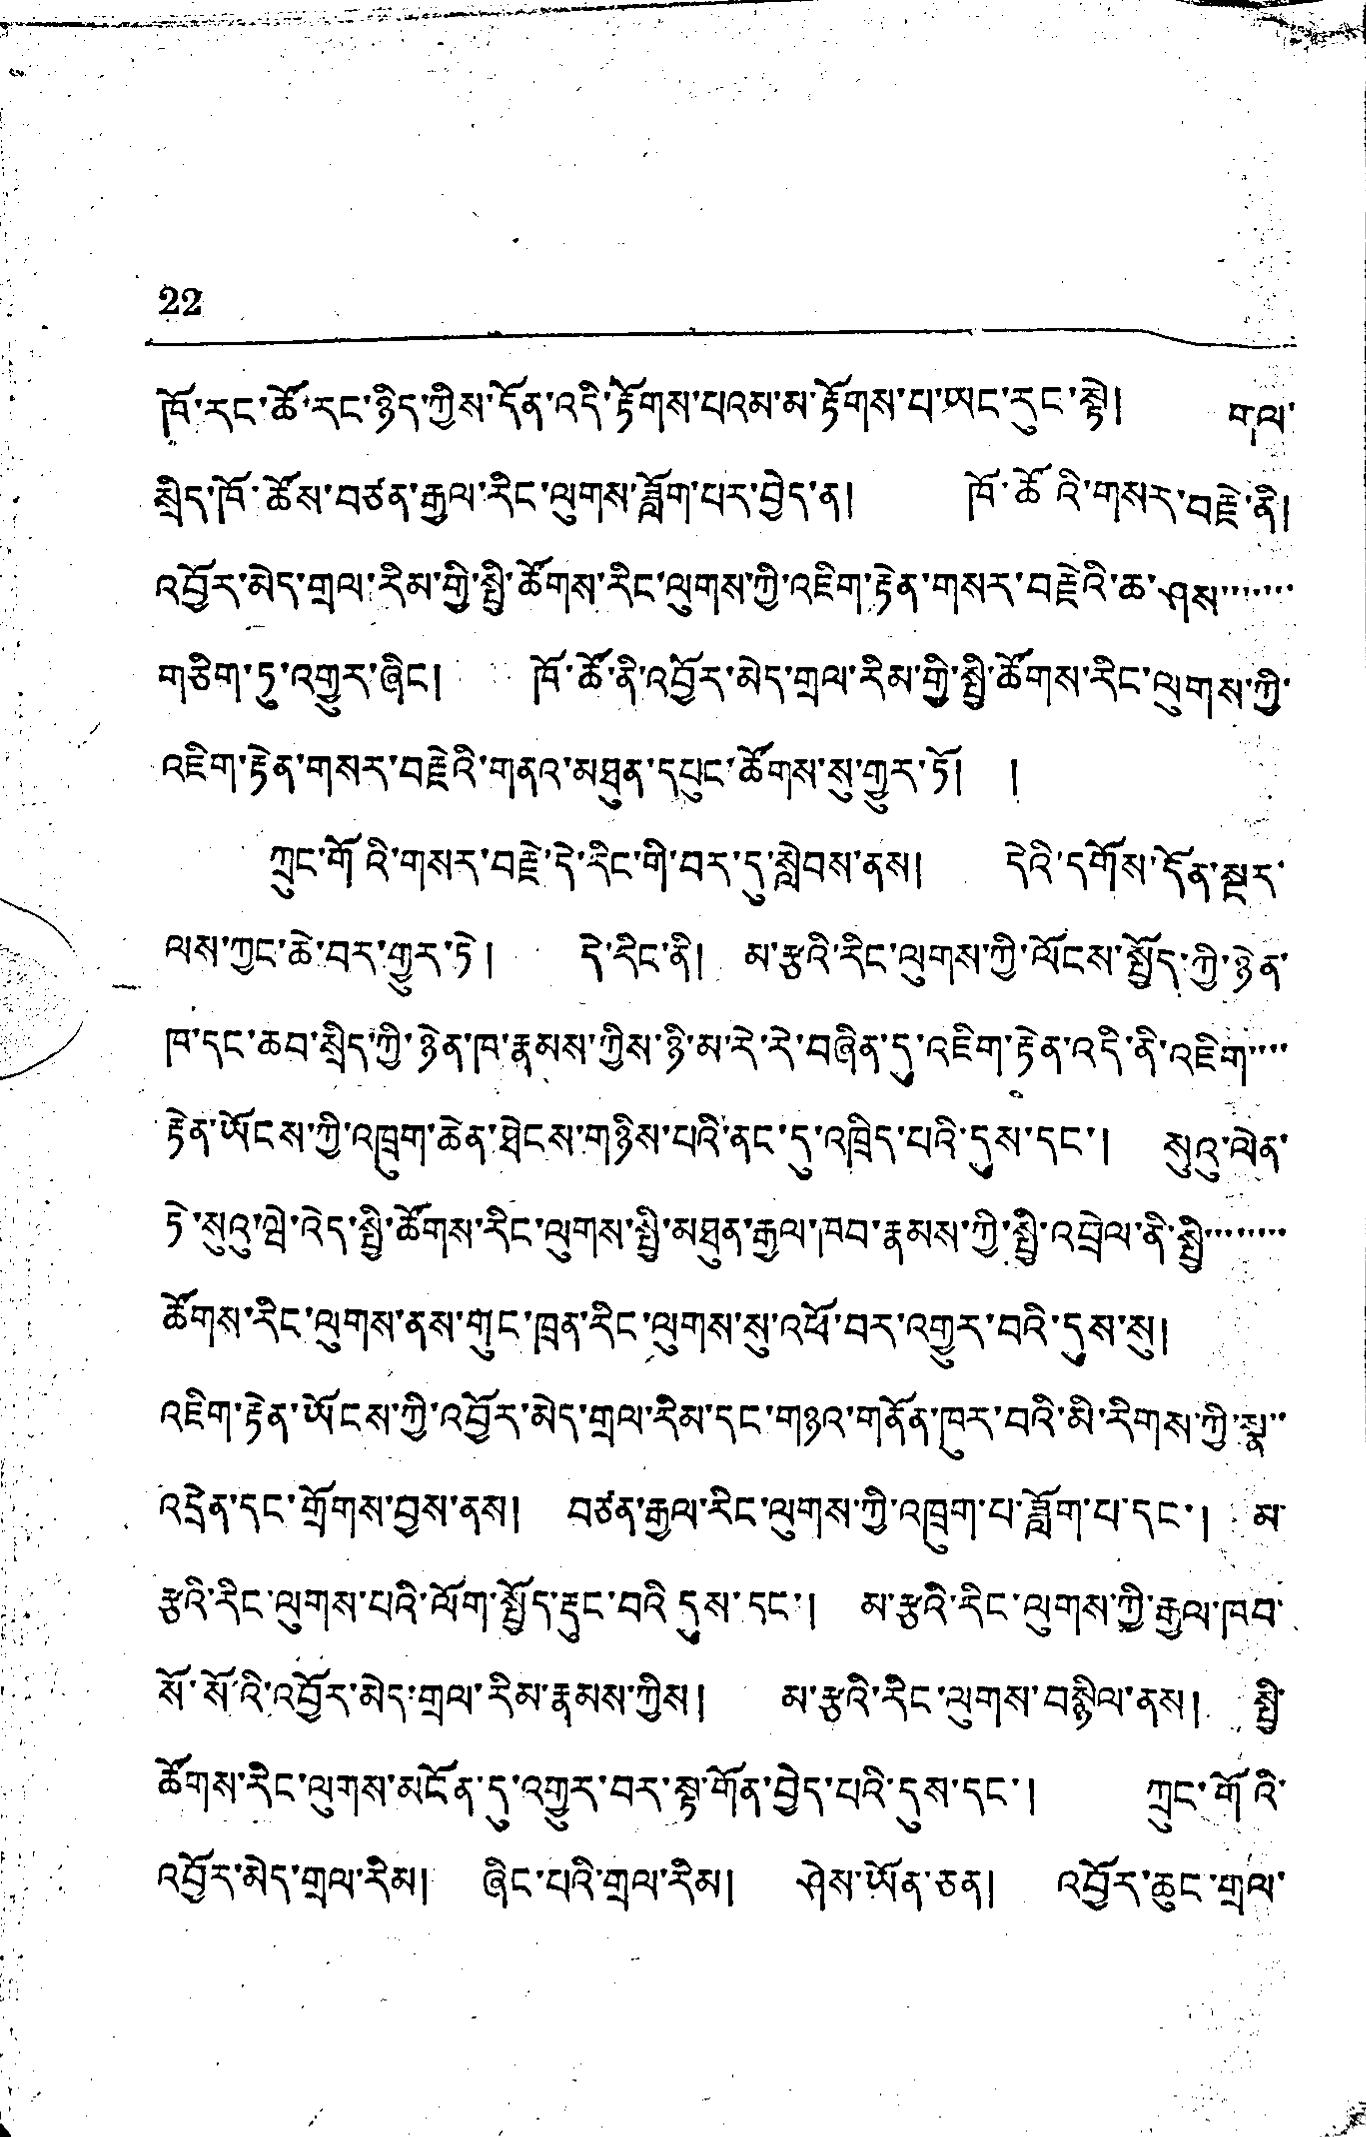22
ཁོ་རང་ཚོ་རང་ཉིད་ཀྱིས་དོན་འདི་རྟོགས་པའམ་མ་རྟོགས་པ་ཡང་རུང་སྟེ། གལ་
སྲིད་ཁོ་ཚོས་བཙན་རྒྱལ་རིང་ལུགས་ཟློག་པར་བྱེད་ན། ཁོ་ཚོའི་གསར་བརྗེ་ནི།
འབྱོར་མེད་གྲལ་རིམ་གྱི་སྤྱི་ཚོགས་རིང་ལུགས་ཀྱི་འཇིག་རྟེན་གསར་བརྗེའི་ཆ་ཤས་་་་་་་
གཅིག་ཏུ་འགྱུར་ཞིང། ཁོ་ཚོ་ནི་འབྱོར་མེད་གྲལ་རིམ་གྱི་སྤྱི་ཚོགས་རིང་ལུགས་ཀྱི་
འཇིག་རྟེན་གསར་བརྗེའི་གནའ་མཐུན་དཔུང་ཚོགས་སུ་གྱུར་ཏོ། །
ཀྲུང་གོའི་གསར་བརྗེ་དེ་རིང་གི་བར་དུ་སླེབས་ནས། དེའི་དགོས་དོན་སྔར་
ལས་ཀྱང་ཆེ་བར་གྱུར་ཏེ། དེ་རིང་ནི། མ་རྩའི་རིང་ལུགས་ཀྱི་ལོངས་སྤྱོད་ཀྱི་ཉེན་
ཁ་དང་ཆབ་སྲིད་ཀྱི་ཉེན་ཁ་རྣམས་ཀྱིས་ཉི་མ་རེ་རེ་བཞིན་དུ་འཇིག་རྟེན་འདི་ནི་འཇིག་་་་
རྟེན་ཡོངས་ཀྱི་འཁྲུག་ཆེན་ཐེངས་གཉིས་པའི་ནང་དུ་འཁྲིད་པའི་དུས་དང་། སུའུ་ལེན་
ཏེ་སུའུ་ཝེ་འེད་སྤྱི་ཚོགས་རིང་ལུགས་སྤྱི་མཐུན་རྒྱལ་ཁབ་རྣམས་ཀྱི་སྤྱི་འབྲེལ་ནི་སྤྱི་་་་་་་་
ཚོགས་རིང་ལུགས་ནས་གུང་ཁྲན་རིང་ལུགས་སུ་འཕོ་བར་འགྱུར་བའི་དུས་སུ།
འཇིག་རྟེན་ཡོངས་ཀྱི་འབྱོར་མེད་གྲལ་རིམ་དང་གཉའ་གནོན་ཁུར་བའི་མི་རིགས་ཀྱི་སྣ་་
འདྲེན་དང་གྲོགས་བྱས་ནས། བཙན་རྒྱལ་རིང་ལུསྒ་ཀྱི་འཁྲུག་པ་ཟློག་པ་དང་། མ་
རྩའི་རིང་ལུགས་པའི་ལོག་སྤྱོད་རྡུང་བའི་དུས་དང་། མ་རྩའི་རིང་ལུགས་ཀྱི་རྒྱལ་ཁབ་
སོ་སོའི་འབྱོར་མེད་གྲལ་རིམ་རྣམས་ཀྱིས། མ་རྩའི་རིང་ལུགས་བསྙིལ་ནས། སྤྱི་
ཚོགས་རིང་ལུགས་མངོན་དུ་འགྱུར་བར་སྟ་གོན་བྱེད་པའི་དུས་དང་། ཀྲུང་གོའི་
འབྱོར་མེད་གྲལ་རིམ། ཞིང་པའི་གྲལ་རིམ། ཤེས་ཡོན་ཅན། འབྱོར་ཆུང་གྲལ་
